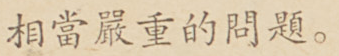相當嚴重的問題。
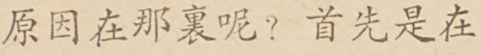元音在那裏呢？首先是在
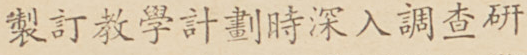制訂教學計劃時深入調查研
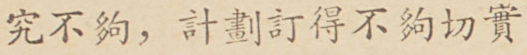究不夠，計劃訂得不夠切實
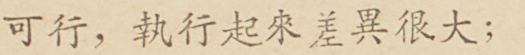可行，執行起來差異很大；
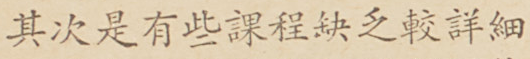其次是有些課程缺乏較詳細
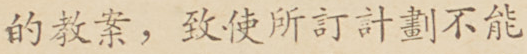的教案，致使所訂計劃不能
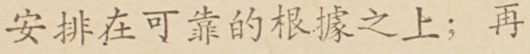安排在可靠的根據之上；再
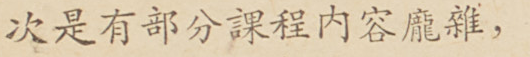次是有部分課程內容龐雜，
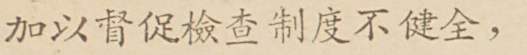加以督促檢查制度不健全，
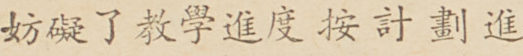妨礙了敎學進度按計劃進
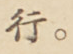行。
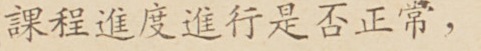課程進度進行是否正常，
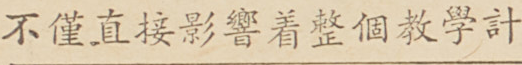不僅直接影響着整個教學計
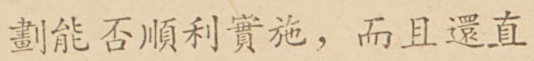劃能否順利實施，而且還直
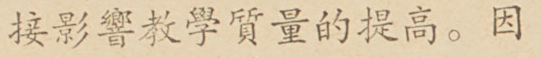接影響教學質量的提高。因
